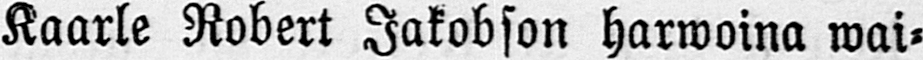Kaarle Robert Jakobson harwoina wai-
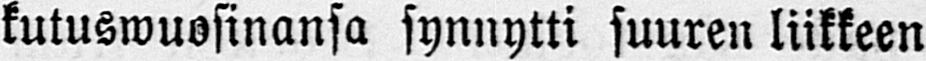kutuswuosinansa synnytti suuren liikkeen
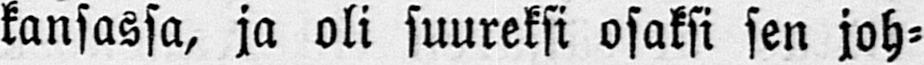kansassa, ja oli suureksi osaksi sen joh-
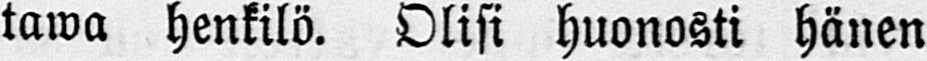tawa henkilö. Olisi huonosti hänen
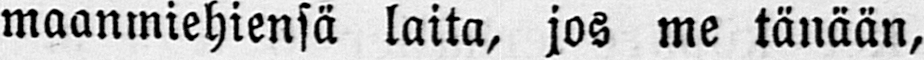maanmiehiensä laita, jos me tänään,
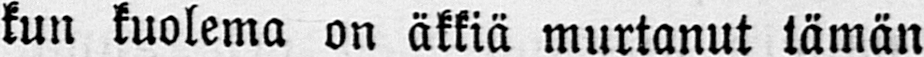kun kuolema on äkkiä murtanut tämän
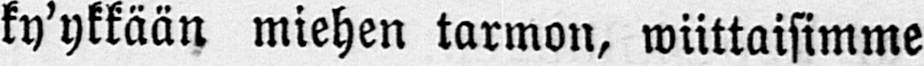ky'ykkään miehen tarmon, wiittaisimme
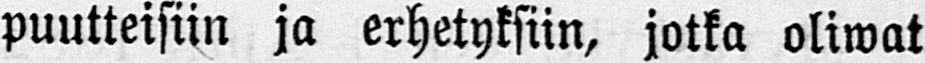puutteisiin ja erhetyksiin, jotka oliwat
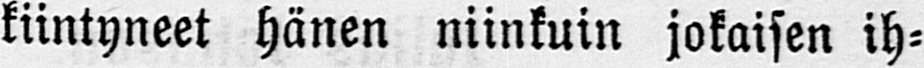kiintyneet hänen niinkuin jokaisen ih-
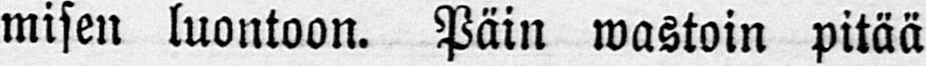misen luontoon. Päin wastoin pitää
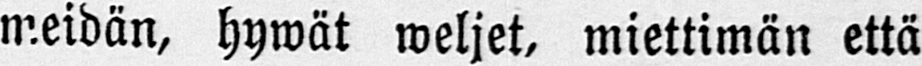meidän, hywät weljet, miettimän että
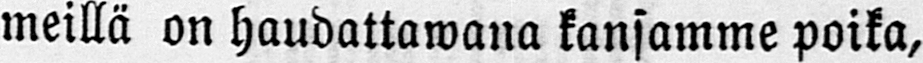meillä on haudottawana kansamme poika,
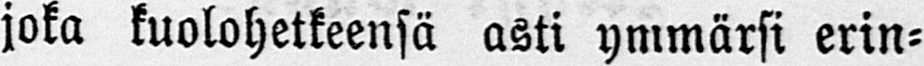joka kuolohetkeensä asti ymmärsi erin-
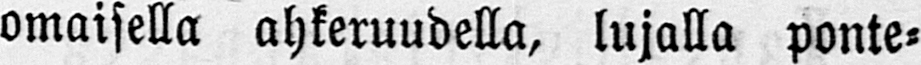omaisella ahkeruudella, lujalla ponte-
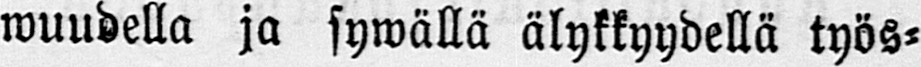wuudella ja sywällä älykkyydellä työs-
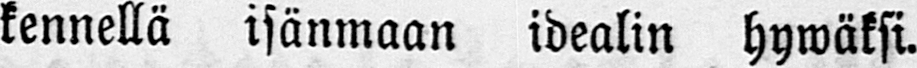kennellä isänmaan idealin hywäksi.
